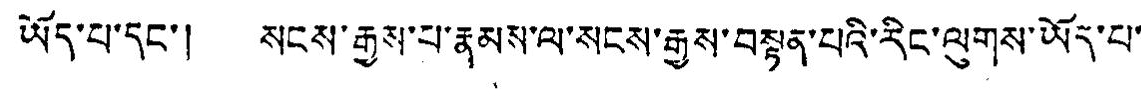ཡོད་པ་དང་། སངས་རྒྱས་པ་རྣམས་ལ་སངས་རྒྱས་བསྟན་པའི་རིང་ལུགས་ཡོད་པ་
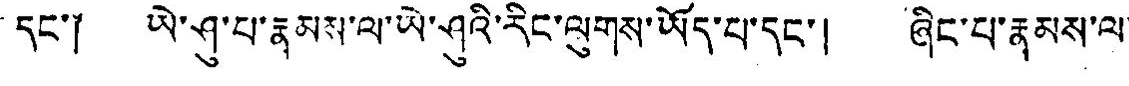དང་། ཡེ་ཤུ་པ་རྣམས་ལ་ཡེ་ཤུའི་རིང་ལུགས་ཡོད་པ་དང་། ཞིང་པ་རྣམས་ལ་
